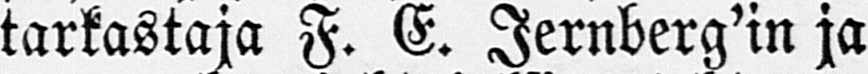tarkastaja F. E. Jernberg'in ja
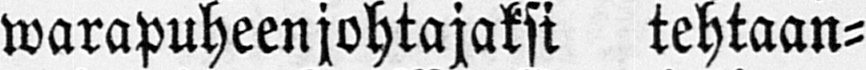warapuheenjohtajaksi tehtaan-
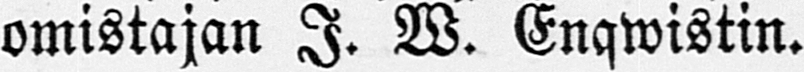omistajan J. W. Enqwistin.
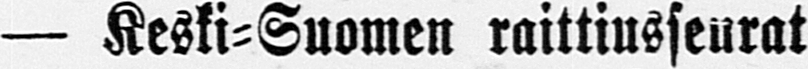— Keski-Suomen raittiusseurat
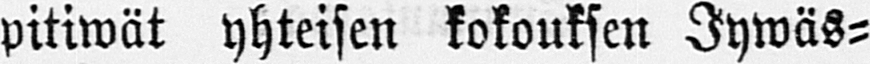pitiwät yhteisen kokouksen Jywäs-
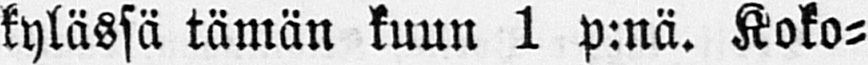kylässä tämän kuun 1 p:nä. Koko-
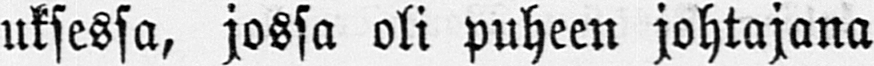uksessa, jossa oli puheen johtajana
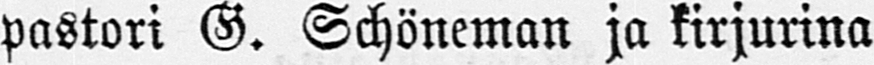pastori G. Schöneman ja kirjurina
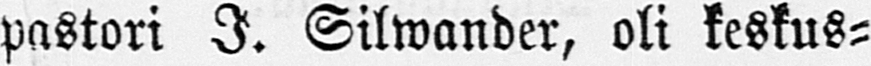pastori J. Silwander, oli keskus-
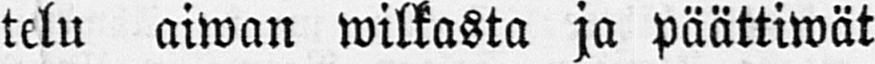telu aiwan wilkasta ja päättiwät
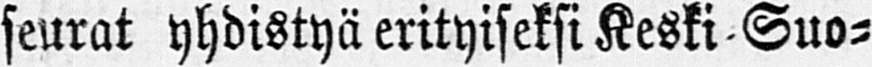seurat yhdistyä erityiseksi Keski-Suo-
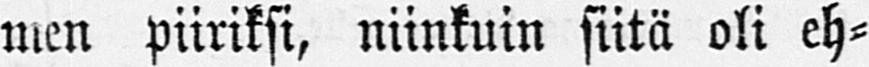men piiriksi, niinkuin siitä oli eh-
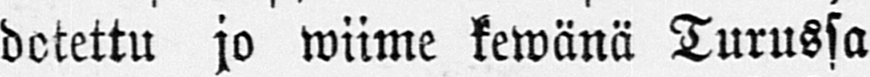dotettu jo wiime kewänä Turussa
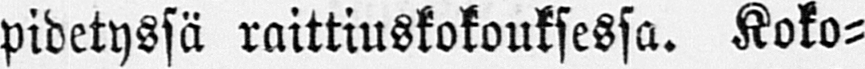pidetyssä raittiuskokouksessa. Koko-
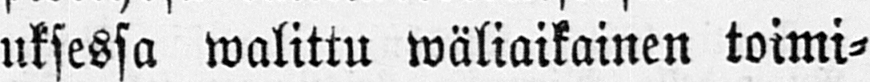uksessa walittu wäliaikainen toimi-
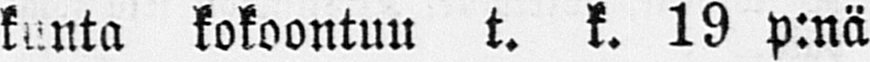kunta kokoontuu t. k. 19 p:nä
